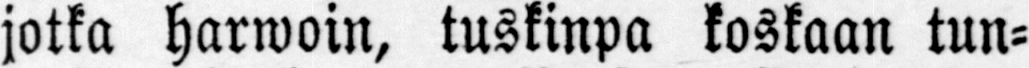jotka harwoin, tuskinpa koskaan tun-
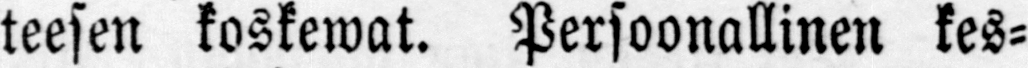teesen koskewat. Persoonallinen kes-
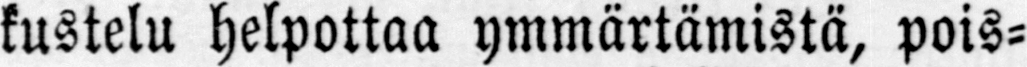kustelu helpottaa ymmärtämistä, pois-
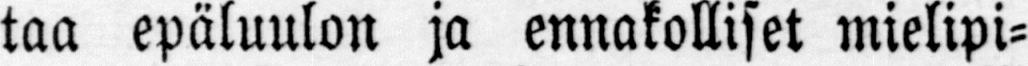taa epäluulon ja ennakolliset mielipi-
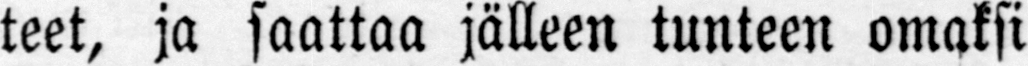teet, ja saattaa jälleen tunteen omaksi
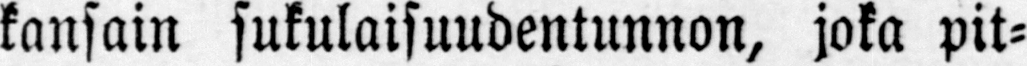kansain sukulaisuudentunnon, joka pit-
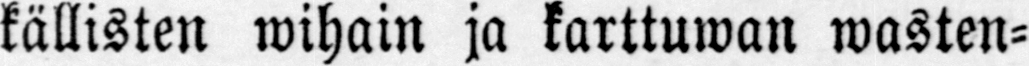källisten wihain ja karttuwan wasten-
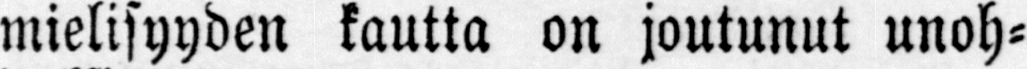mielisyyden kautta on joutunut unoh-
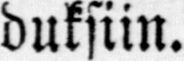duksiin.
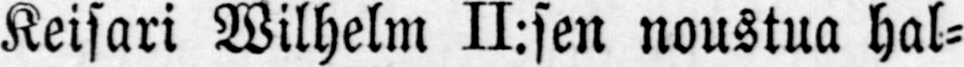Keisari Wilhelm II:sen noustua hal-
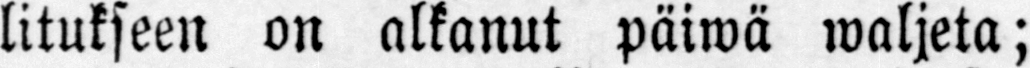litukseen on alkanut päiwä waljeta;
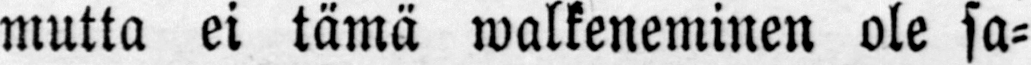mutta ei tämä walkeneminen ole sa-
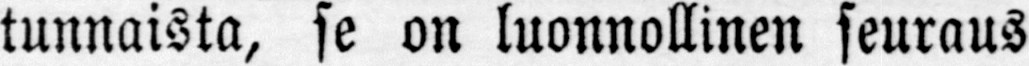tunnaista, se on luonnollinen seuraus
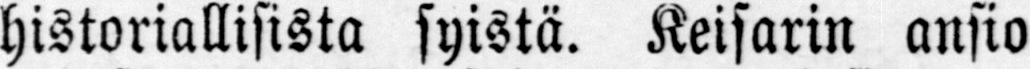historiallisista syistä. Keisarin ansio
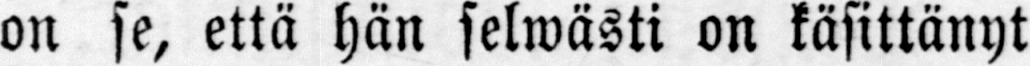on se, että hän selwästi on käsittänyt
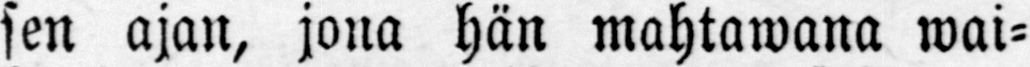sen ajan, jona hän mahtawana wai-
